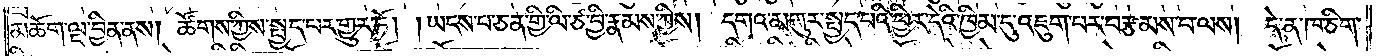མཆོག་ལྔ་བྱིན་ནས། ཚོགས་ཀྱིས་སྤྱད་པར་གྱུར་ཏོ། །ཡངས་པ་ཅན་གྱི་ལི་ཙ་བྱི་རྣམས་ཀྱིས། དགའ་མགུར་སྤྱད་པའི་ཕྱིར་དེའི་ཁྱིམ་དུ་འཇུག་པར་བརྩམས་པ་ལས། དེ་ན་ཁ་ཅིག་
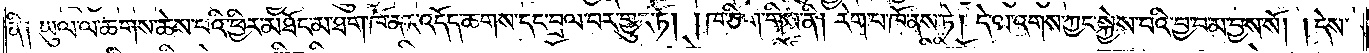ནི༑ ཡུལ་ལ་ཆགས་ཆེས་པའི་ཕྱིར་མཐོང་མ་ཐག་ཁོ་ནར་འདོད་ཆགས་དང་བྲལ་བར་གྱུར་ཏོ། །ཁ་ཅིག་གིས་ནི། རེག་པ་ཁོ་ནས་ཏེ། དེ་ལ་འགས་ཀྱང་སྐྱེས་པའི་བྱ་བ་མ་བྱས་སོ། །དེས་
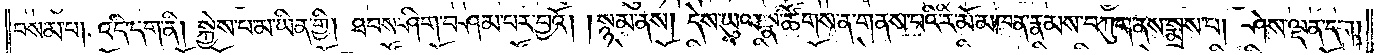བསམ་པ། འདི་དག་ནི། སྐྱེས་པ་མ་ཡིན་གྱི། ཐབས་ཤིག་བཤམ་པར་བྱའོ། །སྙམ་ནས། དེས་ཡུལ་སྣ་ཚོགས་ན་གནས་པའི་རི་མོ་མཁན་རྣམས་བཀུག་ནས་སྨྲས་པ། ཤེས་ལྡན་དག།
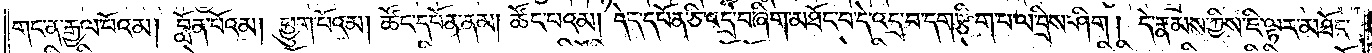གང་ན་རྒྱལ་པོའམ། བློན་པོའམ། ཕྱུག་པོའམ། ཚོང་དཔོན་ནམ། ཚོང་པའམ། དེད་དཔོན་ཅི་འདྲ་བ་ཞིག་མཐོང་བ་དེ་འདྲ་བ་དག་རྩིག་པ་ལ་བྲིས་ཤིག། དེ་རྣམས་ཀྱིས་ཇི་ལྟར་མཐོང་
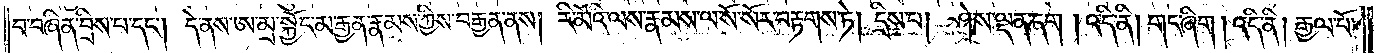བ་བཞིན་བྲིས་པ་དང༌། དེ་ནས་ཨ་མྲ་སྐྱོང་མ་རྒྱན་རྣམས་ཀྱིས་བརྒྱན་ནས། རི་མོའི་ལས་རྣམས་ལ་སོ་སོར་བརྟགས་ཏེ། དྲིས་པ། ཤེས་ལྡན་དག། འདི་ནི། གང་ཞིག །འདི་ནི། རྒྱལ་པོ་
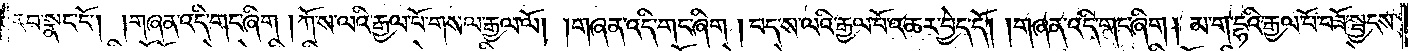རབ་སྣང་ངོ༌། །གཞན་འདི་གང་ཞིག །ཀོ་ས་ལའི་རྒྱལ་པོ་གསལ་རྒྱལ་ལོ། །གཞན་འདི་གང་ཞིག །བད་ས་ལའི་རྒྱལ་པོ་འཆར་བྱེད་དོ། །གཞན་འདི་གང་ཞིག། མ་ག་དྷའི་རྒྱལ་པོ་བཟོ་སྦྱངས་
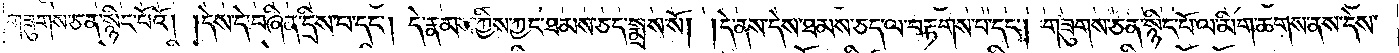གཟུགས་ཅན་སྙིང་པོའོ། །དེས་དེ་བཞིན་དྲིས་པ་དང༌། དེ་རྣམས་ཀྱིས་ཀྱང་ཐམས་ཅད་སྨྲས་སོ། །དེ་ནས་དེས་ཐམས་ཅད་ལ་བརྟགས་པ་དང༌། གཟུགས་ཅན་སྙིང་པོ་ལ་མིག་ཆགས་ནས་དེས་
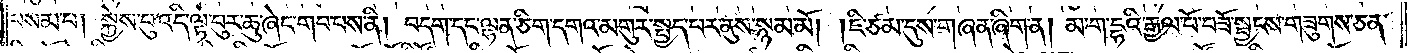བསམ་པ། སྐྱེས་བུ་འདི་ལྟ་བུར་ཆུ་ཞེང་གབ་པས་ནི། བདག་དང་ལྷན་ཅིག་དགའ་མགུར་སྤྱད་པར་ནུས་སྙམ་མོ། །ཇི་ཙམ་དུས་གཞན་ཞིག་ན། མ་ག་དྷའི་རྒྱལ་པོ་བཟོ་སྦྱངས་གཟུགས་ཅན་
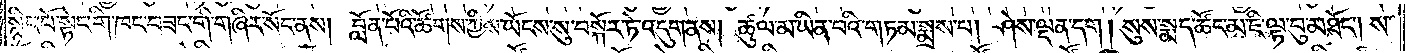སྙིང་པོ་སྟེང་གི་ཁང་བཟང་གི་གཞིར་སོང་ནས། བློན་པོའི་ཚོགས་ཀྱིས་ཡོངས་སུ་བསྐོར་ཏེ་འདུག་ནས། ཚུལ་མ་ཡིན་པའི་གཏམ་སྨྲས་པ། ཤེས་ལྡན་དག། སུས་སྨད་ཚོང་མ་ཇི་ལྟ་བུ་མཐོང༌། ས་
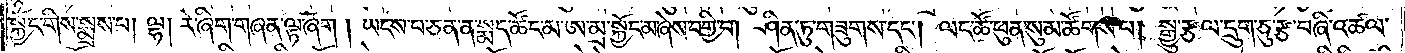སྐྱོང་གིས་སྨྲས་པ། ལྷ། རེ་ཞིག་གཞན་ལྟ་ཞོག། ཡངས་པ་ཅན་ན་སྨད་ཚོང་མ་ཨ་མྲ་སྐྱོང་མ་ཞེས་བགྱི་བ། ཤིན་ཏུ་གཟུགས་དང༌། ལང་ཚོ་ཕུན་སུམ་ཚོགས་པ། སྒྱུ་རྩལ་དྲུག་ཅུ་རྩ་བཞི་འཚལ་
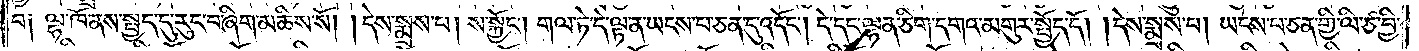བ༑ ལྷ་ཁོ་ནས་སྤྱད་དུ་རུང་བ་ཞིག་མཆིས་སོ། །དེས་སྨྲས་པ། ས་སྐྱོང༌། གལ་ཏེ་དེ་ལྟ་ན་ཡངས་པ་ཅན་དུ་འདོང༌། དེ་དང་ལྷན་ཅིག་དགའ་མགུར་སྤྱོད་དོ། །དེས་སྨྲས་པ། ཡངས་པ་ཅན་གྱི་ལི་ཙ་བྱི་
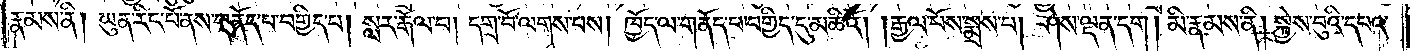རྣམས་ནི། ཡུན་རིང་པོ་ནས་གནོད་པ་བགྱིད་པ། སླར་རྒོལ་བ། དགྲ་བོ་ལགས་པས། ཁྱོད་ལ་གནོད་པ་བགྱིད་དུ་མཆིའོ། །རྒྱལ་པོས་སྨྲས་པ། ཤེས་ལྡན་དག །མི་རྣམས་ནི། སྐྱེས་བུའི་དཔའ་
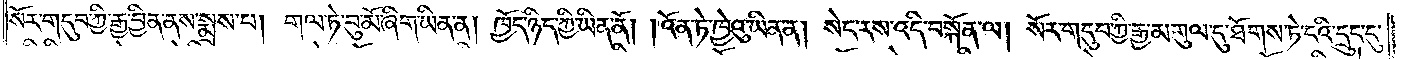སོར་གདུབ་ཀྱི་རྒྱ་བྱིན་ནས་སྨྲས་པ། གལ་ཏེ་བུ་མོ་ཞིག་ཡིན་ན། ཁྱོད་ཉིད་ཀྱི་ཡིན་ནོ། །འོན་ཏེ་ཁྱེའུ་ཡིན་ན། སེང་རས་འདི་བསྐོན་ལ། སོར་གདུབ་ཀྱི་རྒྱ་མགུལ་དུ་ཐོགས་ཏེ་ངའི་དྲུང་དུ་
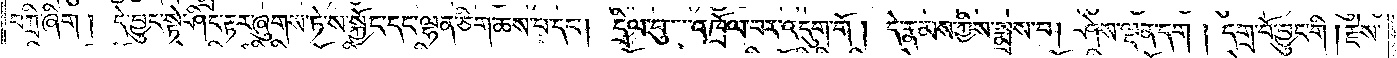བཀྲི་ཞིག། དེ་བྱུང་སྟེ་ཤིང་རྟར་ཞུགས་ཏེ་ས་སྐྱོང་དང་ལྷན་ཅིག་ཆས་པ་དང༌། དྲིལ་བུ་འཁྲོལ་བར་འདུག་གོ། དེ་རྣམས་ཀྱིས་སྨྲས་པ། ཤེས་ལྡན་དག། དགྲ་བོ་བྱུང་གི །རྗེས་
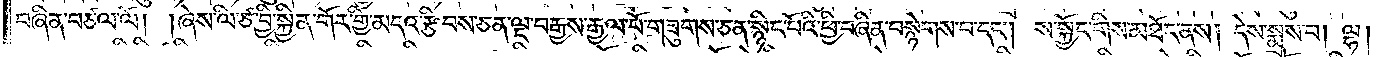བཞིན་བཙལ་ལོ། །ཞེས་ལི་ཙ་བྱི་སྐྱིན་གོར་གྱི་མདའ་རྩིབས་ཅན་ལྔ་བརྒྱས་རྒྱལ་པོ་གཟུགས་ཅན་སྙིང་པོའི་ཕྱི་བཞིན་བསྙེགས་པ་དང༌། ས་སྐྱོང་གིས་མཐོང་ནས། དེས་སྨྲས་པ། ལྷ།
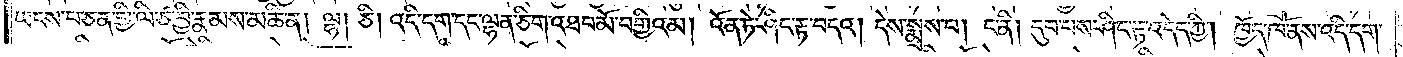ཡངས་པ་ཅན་གྱི་ལི་ཙ་བྱི་རྣམས་མཆི་ན། ལྷ། ཅི། འདི་དག་དང་ལྷན་ཅིག་འཐབ་མོ་བགྱིའམ། འོན་ཏེ་ཤིང་རྟ་བདའ། དེས་སྨྲས་པ། ང་ནི། དུབ་པས་ཤིང་རྟ་འདེད་ཀྱི། ཁྱོད་ཁོ་ནས་འདི་དག་
